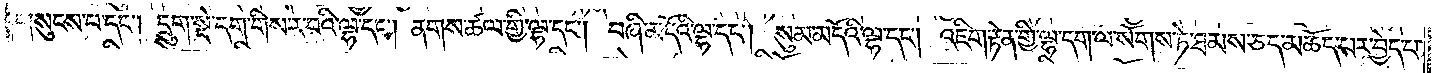གསུངས་པ་དང༌། དྲུག་སྡེ་དག་གིས་ར་བའི་ལྷ་དང༌། ནགས་ཚལ་གྱི་ལྷ་དང༌། བཞི་མདོའི་ལྷ་དང༌། སུམ་མདོའི་ལྷ་དང༌། འཇིག་རྟེན་གྱི་ལྷ་དག་ལ་སོགས་ཏེ་ཐམས་ཅད་མཆོད་པར་བྱེད་པ་
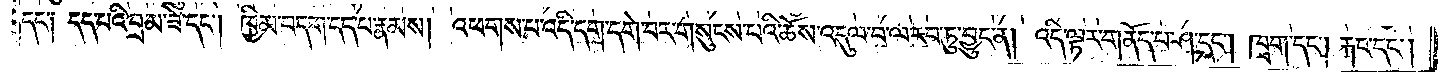དང་༑ དད་པའི་བྲམ་ཟེ་དང༌། ཁྱིམ་བདག་དད་པ་རྣམས། །འཕགས་པ་འདི་དག་དགེ་བར་གསུངས་པའི་ཆོས་འདུལ་བ་རབ་ཏུ་བྱུང་ན། འདི་ལྟར་གནོད་པ་ཤ་དང༌། ཁྲག་དང༌། རྐང་དང༌།
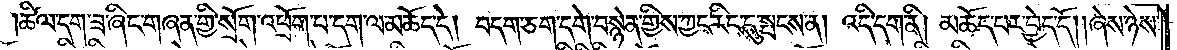ཚིལ་དག་ཟ་ཞིང་གཞན་གྱི་སྲོག་འཕྲོག་པ་དག་ལ་མཆོད་དེ། བདག་ཅག་དགེ་བསྙེན་གྱིས་ཀྱང་རིང་དུ་སྤངས་ན། འདི་དག་ནི། མཆོད་པར་བྱེད་དོ། །ཞེས་ཉེས་
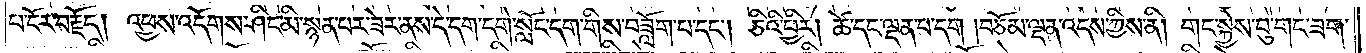པ་ངོར་བརྗོད། འཕྱས་འདོགས་ཤིང་མི་སྙན་པར་ཟེར་ནས་དེ་དག་དགེ་སློང་དག་གིས་བཟློག་པ་དང༌། ཅིའི་ཕྱིར། ཚེ་དང་ལྡན་པ་དག །བཅོམ་ལྡན་འདས་ཀྱིས་ནི། གང་སྐྱེས་བུ་གང་ཟག་
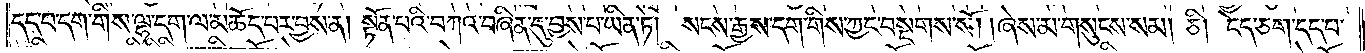དད་པ་དག་གིས་ལྷ་དག་ལ་མཆོད་པར་བྱས་ན། སྟོན་པའི་བཀའ་བཞིན་དུ་བྱས་པ་ཡིན་ཏེ། སངས་རྒྱས་དག་གིས་ཀྱང་བསྔགས་སོ། །ཞེས་མ་གསུངས་སམ། ཅི། ངེད་ཅག་དད་པ་
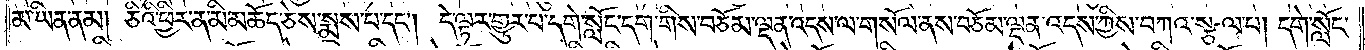མ་ཡིན་ནམ། ཅིའི་ཕྱིར་ན་མི་མཆོད་ཅེས་སྨྲས་པ་དང༌། དེ་ལྟར་གྱུར་པ་དགེ་སློང་དག་གིས་བཅོམ་ལྡན་འདས་ལ་གསོལ་ནས་བཅོམ་ལྡན་འདས་ཀྱིས་བཀའ་སྩལ་པ། དགེ་སློང་
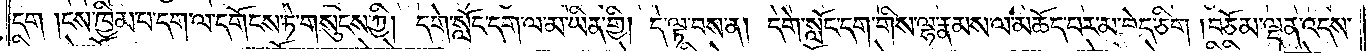དག །ངས་ཁྱིམ་པ་དག་ལ་དགོངས་ཏེ་གསུངས་ཀྱི། དགེ་སློང་དག་ལ་མ་ཡིན་གྱི། དེ་ལྟ་བས་ན། དགེ་སློང་དག་གིས་ལྷ་རྣམས་ལ་མཆོད་པར་མ་བྱེད་ཅིག །བཅོམ་ལྡན་འདས་
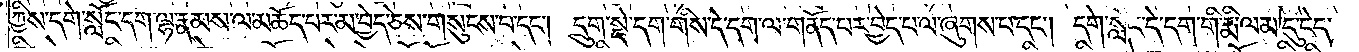ཀྱིས་དགེ་སློང་དག་ལྷ་རྣམས་ལ་མཆོད་པར་མ་བྱེད་ཅེས་གསུངས་པ་དང༌། དྲུག་སྡེ་དག་གིས་དེ་དག་ལ་གནོད་པར་བྱེད་པ་ལ་ཞུགས་པ་དང༌། དགེ་སློང་དེ་དག་གི་རྨི་ལམ་དུ་ངེད་
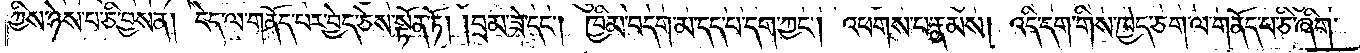ཀྱིས་ཉེས་པ་ཅི་བྱས་ན། ངེད་ལ་གནོད་པར་བྱེད་ཅེས་སྟོན་ཏོ། །བྲམ་ཟེ་དང༌། ཁྱིམ་བདག་མ་དད་པ་དག་ཀྱང༌། འཕགས་པ་རྣམས། འདི་དག་གིས་ཁྱེད་ཅག་ལ་གནོད་པ་ཅི་ཞིག་
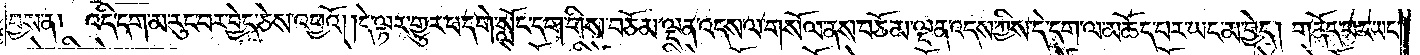བྱས་ན། འདི་དག་མ་རུང་བར་བྱེད་ཅེས་འཕྱའོ། །དེ་ལྟར་གྱུར་པ་དགེ་སློང་དག་གིས་བཅོམ་ལྡན་འདས་ལ་གསོལ་ནས་བཅོམ་ལྡན་འདས་ཀྱིས་དེ་དག་ལ་མཆོད་པར་ཡང་མ་བྱེད། གནོད་པར་ཡང་
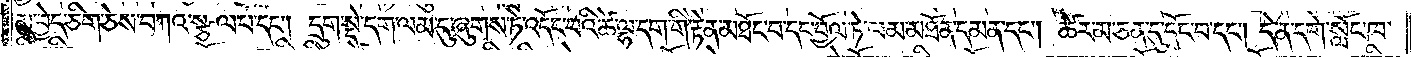མ་བྱེད་ཅིག་ཅེས་བཀའ་སྩལ་པ་དང༌། དྲུག་སྡེ་དག་ལམ་དུ་ཞུགས་ཏེ་འདོང་བའི་ཚེ་ལྷ་དག་གི་རྟེན་མཐོང་བ་དང་བྱོལ་ཏེ་ལམ་མཐོན་དམན་དང༌། ཚེར་མ་ཅན་དུ་དོང་བ་དང༌། དེ་ན་དགེ་སློང་ཁ་
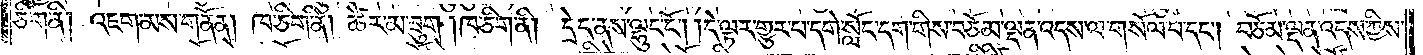ཅིག་ནི། འཇག་མས་གནོན། ཁ་ཅིག་ནི། ཚེར་མ་ཟུག །ཁ་ཅིག་ནི། དྲེད་ནས་ལྷུང་ངོ༌། །དེ་ལྟར་གྱུར་པ་དགེ་སློང་དག་གིས་བཅོམ་ལྡན་འདས་ལ་གསོལ་པ་དང༌། བཅོམ་ལྡན་འདས་ཀྱིས་
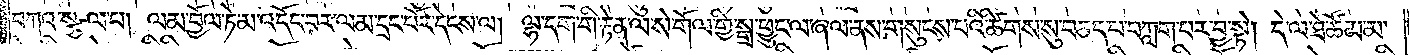བཀའ་སྩལ་པ། ལམ་བྱོལ་ཏེ་མ་འདོང་བར་ལམ་དྲང་པོར་དེངས་ལ། ལྷ་དག་གི་རྟེན་ལ་སེ་གོལ་གྱི་སྒྲ་ཕྱུང་ལ་ཞལ་ནས་གསུངས་པའི་ཚིགས་སུ་བཅད་པ་བཀླག་པར་བྱ་སྟེ། དེ་ལ་ཐེ་ཚོམ་མ་
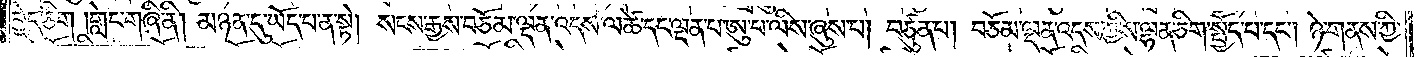བྱེད་ཅིག །གླེང་གཞི་ནི། མཉན་དུ་ཡོད་པ་ན་སྟེ། སངས་རྒྱས་བཅོམ་ལྡན་འདས་ལ་ཚེ་དང་ལྡན་པ་ཨུ་པ་ལིས་ཞུས་པ། བཙུན་པ། བཅོམ་ལྡན་འདས་ཀྱིས་ལྷན་ཅིག་སྤྱོད་པ་དང༌། ཉེ་གནས་ཀྱི་
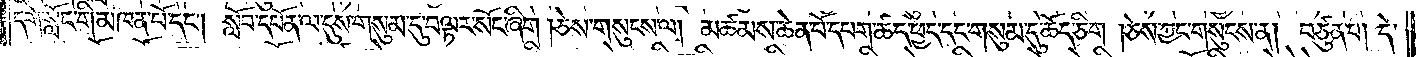དགེ་སློང་གི་མཁན་པོ་དང༌། སློབ་དཔོན་ལ་དུས་གསུམ་དུ་བལྟར་སོང་ཞིག །ཅས་གསུངས་ལ། མཚམས་ཆེན་པོ་དཔག་ཚད་ཕྱེད་དང་གསུམ་དུ་ཆོད་ཅིག །ཅེས་ཀྱང་གསུངས་ན། བཙུན་པ། དེ་
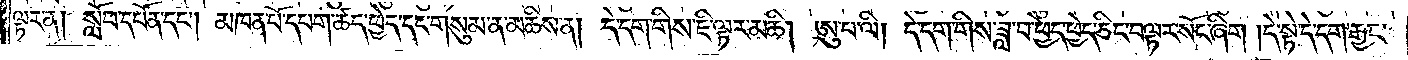ལྟར་ན། སློབ་དཔོན་དང༌། མཁན་པོ་དཔག་ཚད་ཕྱེད་དང་གསུམ་ན་མཆིས་ན། དེ་དག་གིས་ཇི་ལྟར་མཆི། ཨུ་པ་ལི། དེ་དག་གིས་ཟླ་བ་ཕྱེད་ཕྱེད་ཅིང་བལྟར་སོང་ཞིག །དེ་སྟེ་དེ་དག་རྒྱང་
